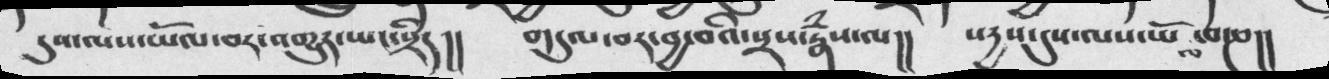དུས་ལས་ཡོལ་བར་འགྱུར་ཡང་སྲིད །།    གདུལ་བར་བྱ་བའི་སྲས་རྣཾས་ལ།།  སདྱས་དུས་ལས་ཡོལ་བ་ཎ།།
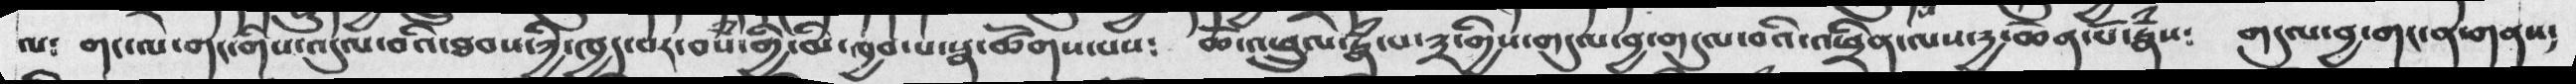ལ༴  གང་ལ་གང་གིས་འདུལ་བའི་ཐབས་ཀྱི་ཁྱད་པར་བས་གྱི་མི་ཁྱབ་པ་སྣ་ཚོགས་པས༴  ཆོ་འཕྲུལ་རྣཾ་པ་༣་གྱིས་གདུལ་བྱ་གདུལ་བའི་འཕྲིན་ལས་དྱ་ཆེན་པོ་རྣཾས༴  གདུལ་བྱ་གང་ན་གནས༴
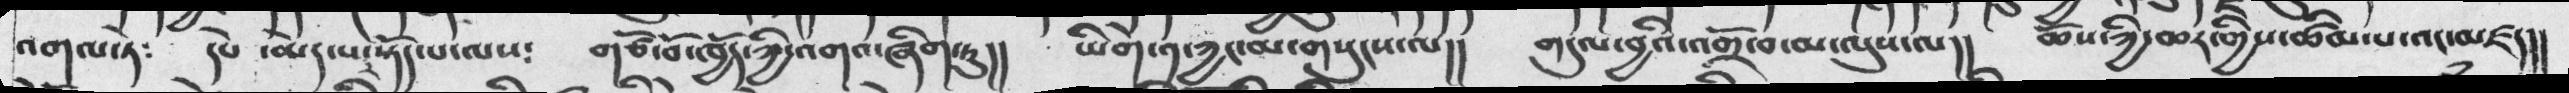འགལ་ཏེ༴  དཔེ་ མེད་པ་སྟོད་པ་ལས༴  གཙོ་བོ་ཁྱོད་ཀྱི་འགའ་ཞིག་ཏུ།།   ཡིགེ་༡་ཀྱང་མ་གསུངས་ལ།།  གདུལ་བྱའི་འགྲོ་བ་མ་ལུས་ལ།།  ཆོས་ཀྱི་ཆར་གྱིས་ཚིམ་པ་འང་མཛད།།
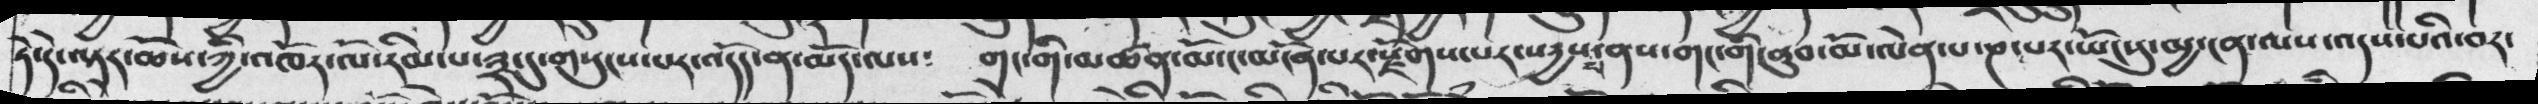སྟེ་དེ་ལྟར་ཆོས་ཀྱི་འཁོར་ལོ་རིམ་པ་༣་དུ་གསུངས་པར་འདོད་ན་མདོ་ལས༴  གང་གི་མཚན་མོ་ང་མངོན་པར་རྫོགས་པར་སདྱས་པ་ནས་གང་གི་ནུབ་མོ་ལེན་པ་ཎ་པར་ཡོངསུ་མྱ་ངན་ལས་འདས་པའི་བར་
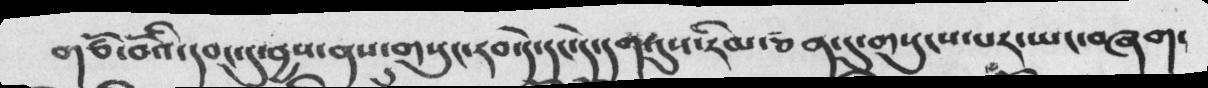གཙོ་བོའི་དབང་དུ་བྱས་ནས་གསུང་རབ་དེ་དང་དེ་དག་དུས་རིམ་ཅན་དུ་གསུངས་པར་ཡང་བཞག་
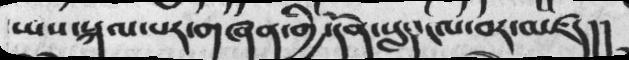ཡས་སྐལ་པར་གཞན་གྱི་དོན་སླད་ངལ་བར་མཛད།།
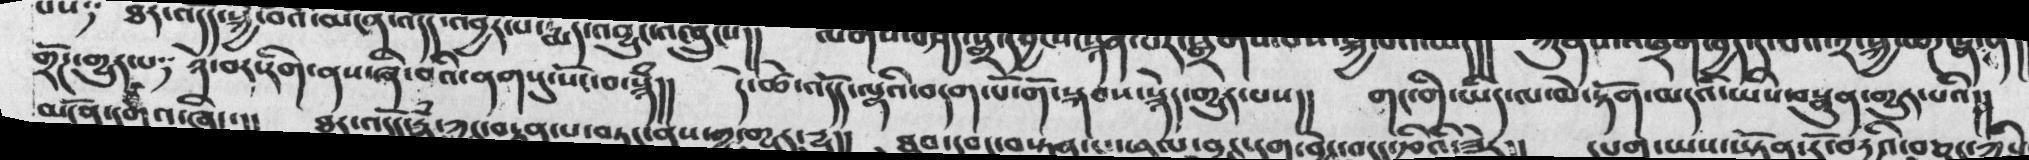གྲོཌ་གྱུར་པ༴  ཉེ་བར་རིག་ནས་ཞི་བའི་ནགསུ་སོང་བ་སྙཾ།།  དེ་ཚེ་འདོད་ལྷའི་བདག་པོ་གོ་སྐབས་སྙེད་གྱུར་པས།།  གང་གི་ཡིད་ལ་མེ་ཏོག་མདའི་ཡིས་བསྣུན་གྱུར་པའི།།
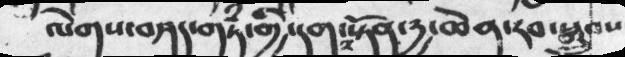ལེགས་བཤད་གཏཾ་གྱི་དགའ་སྟོན་དྱ་ཆེན་རབ་སྒྲུབས
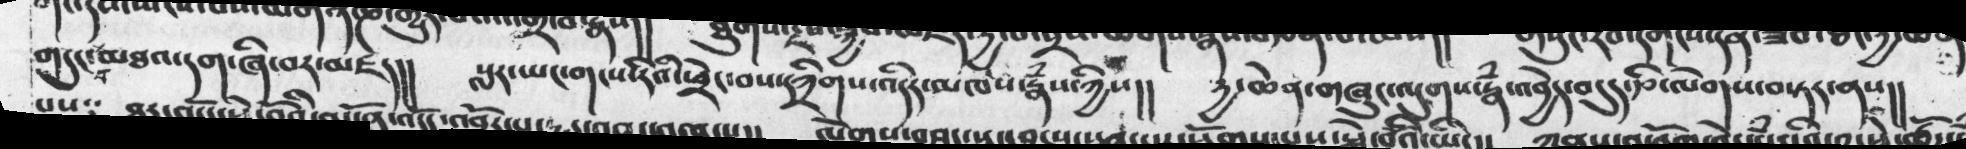གདུང་བ་མཐའ་དག་ཞི་བར་མཛད།།  སླར་ཡང་གངས་རིའི་ཕྲེང་བས་དཀྲིགས་འདིར་མཁས་རྣཾས་ཀྱིས།།  དྱ་ཆེན་གཞུང་ལུགས་རྣཾ་འབྱེད་བདུད་རྩི་ལེགས་བསྟར་ནས།།
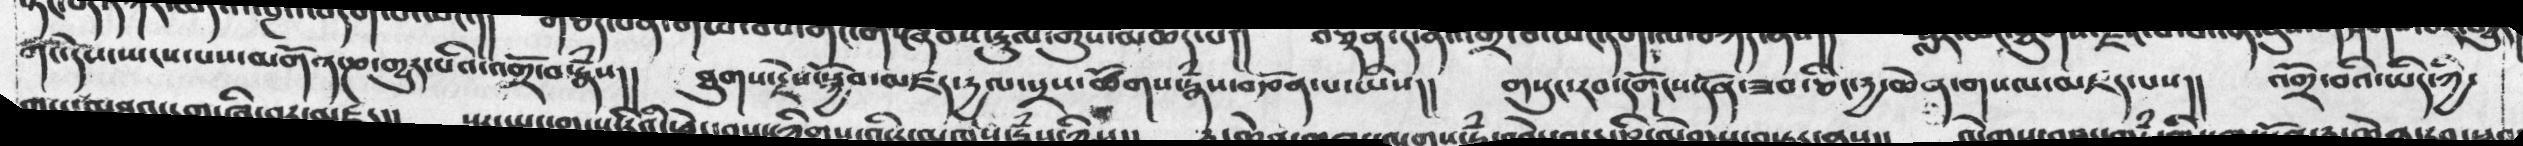གང་དེས་སྤངས་པས་མགོན་ཎ་གྱུར་པའི་འགྲོ་བ་རྣཾས།།  ཐུགས་རྗེས་སྐྱོབ་མཛད་དྱལ་སྲས་ཚོགས་རྣཾས་བརྩོན་པ་ཡིས།།  གསུང་རབ་དགོངས་དོན་ཟབ་ཅིང་དྱ་ཆེན་གསལ་མཛད་པས།།  འགྲོ་བའི་ཡིད་ཀྱི་
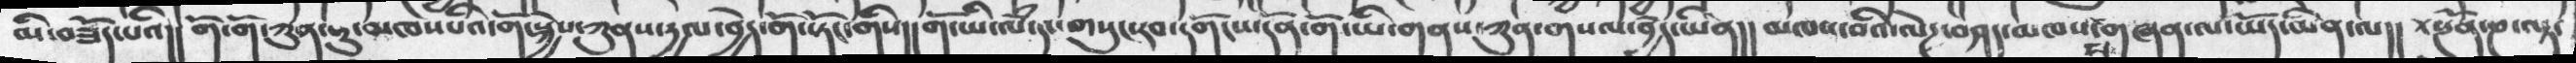མི་བཟོད་པའི།།  གོ་གོ་ཀུན་ཏུ་མཁས་པའི་གོ་སྐྱེས་ཀུནས་དྱལ་བྱེད་གོ་སྟོང་གིས།།  གོ་ཡི་ལཾ་དང་གསུང་རབ་དགོངས་དོན་གོ་ཡི་གནས་ཀུན་གསལ་བྱེད་ཡིན།།  མཁས་བའི་ལེཌ་བཤད་མཁས་པ་གཞན་ལ་ཡོད་མིན་ལ།།  +སྔོན་ཎ་ལྟ་
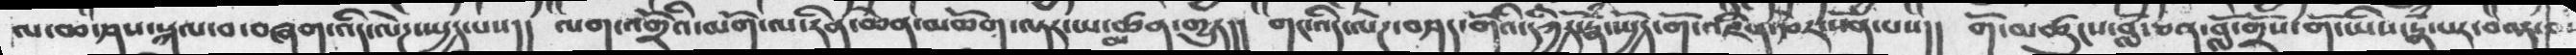ལ་ཆ་ཤས་སྐལ་བ་བཞག་འདི་ལེཌ་སྤྱད་པས།།  ལག་འགྲོའི་མགོ་ལ་རིན་ཆེན་མཆོག་ལྟར་ཡ་མཚན་གྱུར།།  གང་འདི་ལེཌ་བཤད་གོའི་དཀྱིརོ་རྣཾ་སྤྱོད་གོ་འཛིན་རྩེར་སོན་པས།།  གོ་མཚུངས་བློ་ཅན་བློ་གྲོས་གོ་ཡིས་རྣཾ་པར་བལྟ་བ་
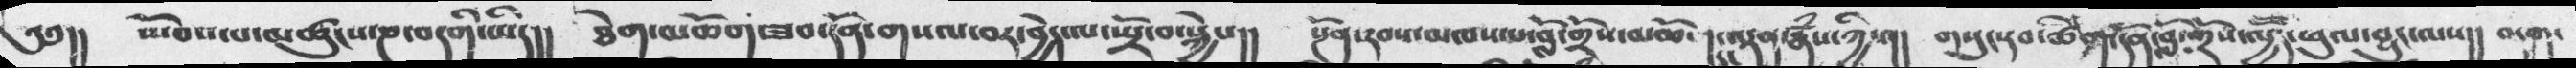༄༅།། སྤོབས་པ་མཚུངས་ཎ་བདགི་ཡིད།།  ཐེག་མཆོག་ཟབ་དོན་གསལ་བར་བྱེད་ལ་སྤྲོ་བ་སྐྱེས།།  སྔོན་རབས་མཁས་པ་བློ་གྲོས་མཆོག་ལྡན་རྣཾས་ཀྱིས།།  གསུང་རབ་ཚིག་དོན་བློ་གྲོས་ལྱོོད་ཕུལ་བྱུང་ལས།།  བདག་
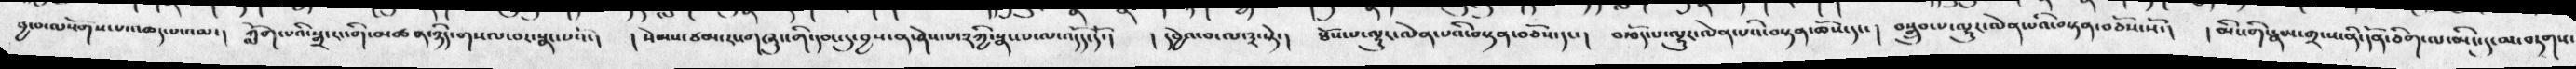བྱ་བ་ལསོགས་པ་འཆད་པ་འམ་།  གློག་པའི་སྒྲ་རང་གི་མཚན་ཉིད་གལ་བར་སྣང་པའོ་།  ། སེམས་ཙམ་རང་གཞུང་གི་དབང་དུ་བྱས་ན་ཤེས་པ་༢་ཀྱི་སྣང་པ་ལ་འདོད་དོ་།  །དབྱེ་བ་ལ་༣་སྟེ་།  ཐོས་པ་ལྷུར་ལེན་བསྟན་བཅོས་དང་།  བརྩོད་པ་ལྷུར་ལེན་པའི་བསྟན་བཅོས་དང་།  བསྒྲུབ་པ་ལྷུར་ལེན་པའི་བསྟན་བཅོས་སོ་།   ། མིང་གི་རྣམ་གྲངས་ནི་དོན་ཅིག་ལ་མིང་དུ་མ་བཏགས་
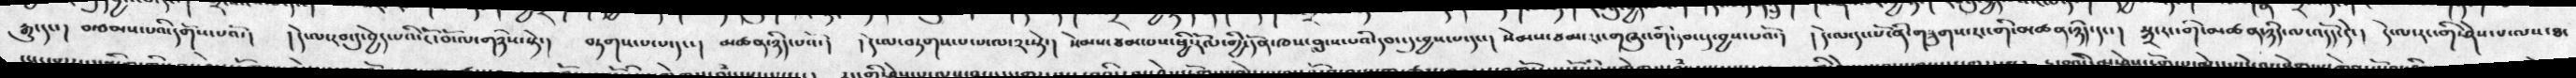རྒྱུ་དངད་།  བརྩམས་པའི་དགོས་པའོ་།  ། དེ་ལ་རབ་དུ་བྱེད་པའི་ངོ་བོ་ལ་གཉིས་སྟེ་།  བཏགས་པ་བ་དང་། མཚནཉིད་པའོ་།  ། དེ་ལ་བཏགས་པ་བ་ལ་༢་སྟེ་།  སེམས་ཙམ་པས་ཕྱི་རོལ་གྱི་དོན་ཁས་བླངས་པའི་དབང་དུ་བྱས་པ་དང་། སེམས་ཙམ་རང་གཞུང་གི་དབང་དུ་བྱས་པའོ་།  ། དེ་ལ་དང་པོ་ནི་གཟུགས་རང་་གི་མཚན་ཉིད་དང་། སྒྲ་རང་གི་མཚན་ཉིད་ལ་འདོད་དེ་།   དེ་ལ་རང་གི་ཤེས་པ་ལས་ཐ་
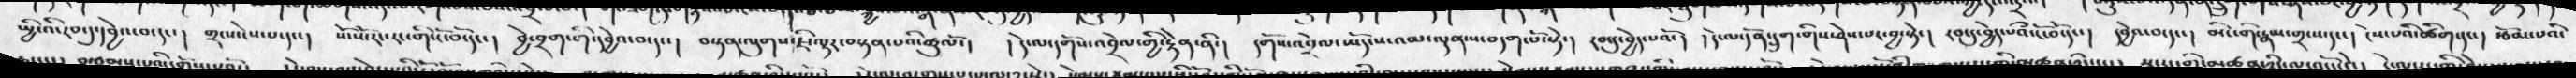སྤྱི་འི་རབ་དུ་དབྱེ་བ་དང་།  གྲངས་ངེས་པ་དང་།  སོ་སོ་རང་རང་གི་ངོ་བོ་དང་།  བྱེ་བྲག་གི་དབྱེའ་བ་དང་།  བསྟན་ལུགས་ཇི་ལྟར་བསྟན་པའི་ཚུལོ་།  ། དེ་ལ་དགོས་འབྲེལ་གྱི་རྟེན་ནི་།  དགོས་འབྲེལ་ཡོད་པ་འམ་ལྡན་པ་བདག་པོ་སྟེ་།  རབ་དུ་བྱེད་པའོ་།  ། དེ་ལ་དོན་དྲུག་གིས་ཤེས་པར་བྱ་སྟེ་།  རབ་དུ་བྱེད་པའཾ་ངོ་བོ་དང་།  དབྱེའ་བ་དང་།  མིང་གི་རྣམ་གྲངས་དང་།  ངེས་པའི་ཚིག་དང་།  རྩོམ་པའི་
